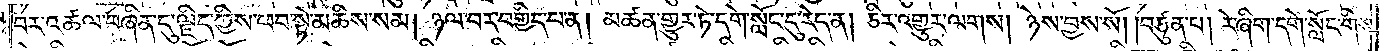བར་འཚལ་བཞིན་དུ་ལྗིད་ཀྱིས་ཕབ་སྟེ་མཆིས་སམ། ཉལ་བར་བགྱིད་པ་ན། མཚན་གྱུར་ཏེ་དགེ་སློང་དུ་རེད་ན། ཅིར་འགྱུར་ལགས། ཉེས་བྱས་སོ། །བཙུན་པ། རེ་ཞིག་དགེ་སློང་གིས་
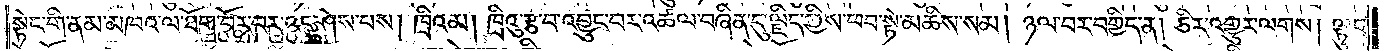སྟེང་གི་ནམ་མཁའ་ལ་ཐོག་བོར་བར་འདུ་ཤེས་པས། ཁྲིའམ། ཁྲིའུ་རྩ་བ་འབྱུང་བར་འཚལ་བཞིན་དུ་ལྗིད་ཀྱིས་ཕབ་སྟེ་མཆིས་སམ། ཉལ་བར་བགྱིད་ན། ཅིར་འགྱུར་ལགས། ལྟུང་
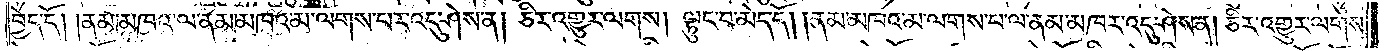བྱེད་དོ། །ནམ་མཁའ་ལ་ནམ་མཁའ་མ་ལགས་པར་འདུ་ཤེས་ན། ཅིར་འགྱུར་ལགས། ལྟུང་བ་མེད་དོ། །ནམ་མཁའ་མ་ལགས་པ་ལ་ནམ་མཁར་འདུ་ཤེས་ན། ཅིར་འགྱུར་ལགས།
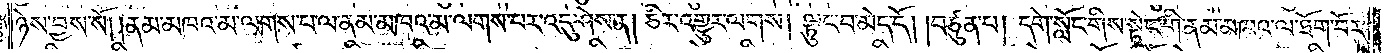ཉེས་བྱས་སོ། །ནམ་མཁའ་མ་ལགས་པ་ལ་ནམ་མཁའ་མ་ལགས་པར་འདུ་ཤེས་ན། ཅིར་འགྱུར་ལགས། ལྟུང་བ་མེད་དོ། །བཙུན་པ། དགེ་སློང་གིས་སྟེང་གི་ནམ་མཁའ་ལ་ཐོག་བོར་
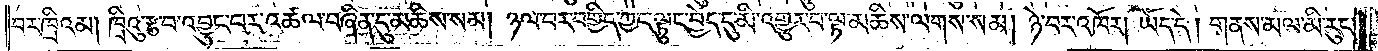བར་ཁྲིའམ། ཁྲིའུ་རྩ་བ་འབྱུང་བར་འཚལ་བཞིན་དུ་མཆིས་སམ། ཉལ་བར་བགྱིད་ཀྱང་ལྟུང་བྱེད་དུ་མི་འགྱུར་བ་ལྟ་མཆིས་ལགས་སམ། ཉེ་བར་འཁོར། ཡོད་དེ། གནས་མལ་མི་རུང་
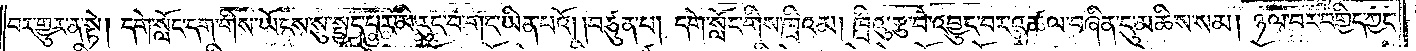བར་གྱུར་ན་སྟེ། དགེ་སློང་དག་གིས་ཡོངས་སུ་སྤྱད་པར་མི་རུང་བ་གང་ཡིན་པའོ། །བཙུན་པ། དགེ་སློང་གིས་ཁྲིའམ། ཁྲིའུ་རྩ་བ་འབྱུང་བར་འཚལ་བཞིན་དུ་མཆིས་སམ། ཉལ་བར་བགྱིད་ཀྱང་
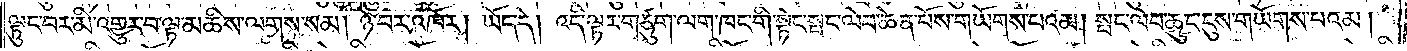ལྟུང་བར་མི་འགྱུར་བ་ལྟ་མཆིས་ལགས་སམ། ཉེ་བར་འཁོར། ཡོད་དེ། འདི་ལྟར་གཙུག་ལག་ཁང་གི་སྟེང་སྤང་ལེབ་ཆེན་པོས་གཡོགས་པའམ། སྤང་ལེབ་ཆུང་ངུས་གཡོགས་པའམ།
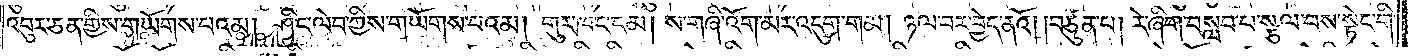འབུར་ཅན་གྱིས་གཡོགས་པའམ། ཤིང་ལེབ་ཀྱིས་གཡོགས་པའམ། གུར་ཁང་ངམ། ས་གཞི་འོག་མར་འདུག་གམ། ཉལ་བར་བྱེད་ནའོ། །བཙུན་པ། རེ་ཞིག་བསླབ་པ་སྩལ་བས་སྟེང་གི་
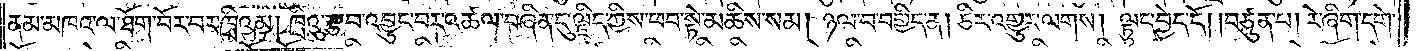ནམ་མཁའ་ལ་ཐོག་བོར་བར་ཁྲིའམ། ཁྲིའུ་རྩ་བ་འབྱུང་བར་འཚལ་བཞིན་དུ་ལྗིད་ཀྱིས་ཕབ་སྟེ་མཆིས་སམ། ཉལ་བ་བགྱིད་ན། ཅིར་འགྱུར་ལགས། ལྟུང་བྱེད་དོ། །བཙུན་པ། རེ་ཞིག་དགེ་
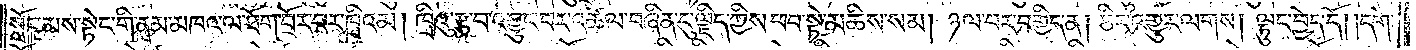སློང་མས་སྟེང་གི་ནམ་མཁའ་ལ་ཐོག་བོར་བར་ཁྲིའམ། ཁྲིའུ་རྩ་བ་འབྱུང་བར་འཚལ་བཞིན་དུ་ལྗིད་ཀྱིས་ཕབ་སྟེ་མཆིས་སམ། ཉལ་བར་བགྱིད་ན། ཅིར་འགྱུར་ལགས། ལྟུང་བྱེད་དོ། །དགེ་
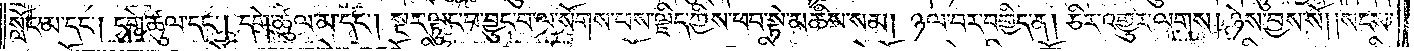སློང་མ་དང༌། དགེ་ཚུལ་དང༌། དགེ་ཚུལ་མ་དང༌། སྔར་ལྟུང་བ་བྱུང་བ་ལ་སོགས་པས་ལྗིད་ཀྱིས་ཕབ་སྟེ་མཆིས་སམ། ཉལ་བར་བགྱིད་ན། ཅིར་འགྱུར་ལགས། ཉེས་བྱས་སོ། །སངས་
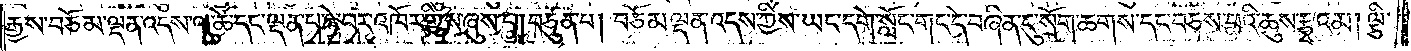རྒྱས་བཅོམ་ལྡན་འདས་ལ་ཚེ་དང་ལྡན་པ་ཉེ་བར་འཁོར་གྱིས་ཞུས་པ། བཙུན་པ། བཅོམ་ལྡན་འདས་ཀྱིས་ཡང་དགེ་སློང་གང་དེ་བཞིན་དུ་སྲོག་ཆགས་དང་བཅས་པའི་ཆུས་རྩྭའམ། ལྕི་
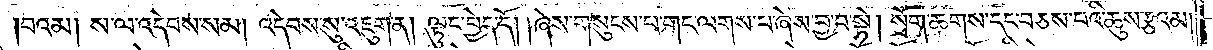།བའམ། ས་ལ་འདེབས་སམ། འདེབས་སུ་འཇུག་ན། ལྟུང་བྱེད་དོ། །ཞེས་གསུངས་པ་གང་ལགས་པ་ཞེས་བྱ་བ་སྟེ། སྲོག་ཆགས་དང་བཅས་པའི་ཆུས་རྩའམ།
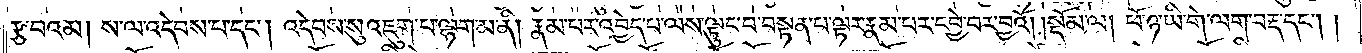རྩ་བའམ། ས་ལ་འདེབས་པ་དང༌། འདེབས་སུ་འཇུག་པ་ལྷག་མ་ནི། རྣམ་པར་འབྱེད་པ་ལས་ལྟུང་བ་བསྟན་པ་ལྟར་རྣམ་པར་དབྱེ་བར་བྱའོ།    །སྡོམ་ལ། ཕོ་ཉ་ཡི་གེ་ལག་བརྡ་དང༌།
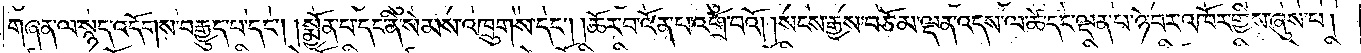གཞན་ལ་སྙད་འདོགས་བརྒྱུད་པ་དང༌། །སྨྱོན་པ་དང་ནི་སེམས་འཁྲུགས་དང༌། །ཚོར་བ་འོན་པ་འགྲོ་བའོ། །སངས་རྒྱས་བཅོམ་ལྡན་འདས་ལ་ཚེ་དང་ལྡན་པ་ཉེ་བར་འཁོར་གྱིས་ཞུས་པ།
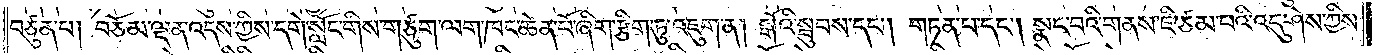བཙུན་པ། བཅོམ་ལྡན་འདས་ཀྱིས་དགེ་སློང་གིས་གཙུག་ལག་ཁང་ཆེན་པོ་ཞིག་རྩིག་ཏུ་འཇུག་ན། སྒོའི་སྦུབས་དང༌། གཏན་པ་དང༌། སྣང་བའི་གནས་ཇི་ཙམ་པའི་འདུ་ཤེས་ཀྱིས་
